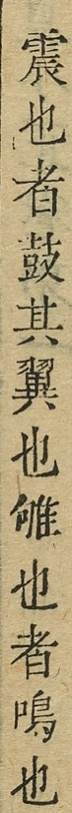震也者鼓其翼也雊也者鳴也
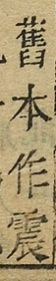舊本作震
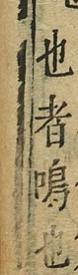也皆鳴七
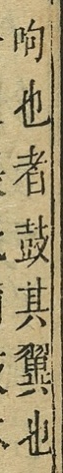呴也者鼓其翼也
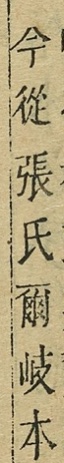今從張氏爾岐本
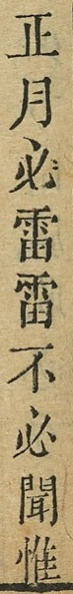正月必雷雷不必聞惟
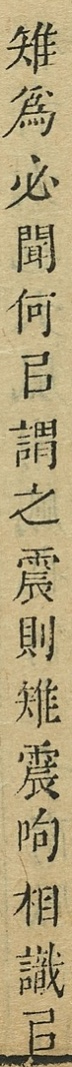雉為必聞何以謂之震則雉震䧁相識以
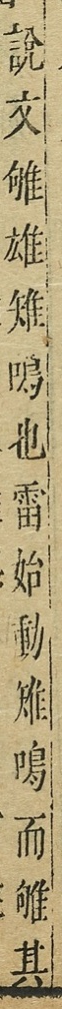說交雊雄雉鳴也雷始動雉鳴而雊其
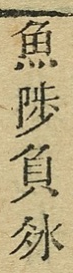魚陟負冰
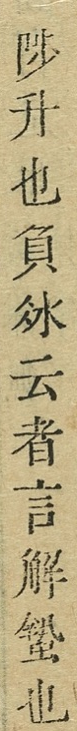陟升也負冰云者言解蟄也
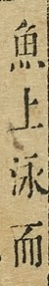魚上流而
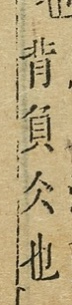背負仌也
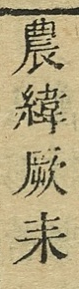農緯厥耒
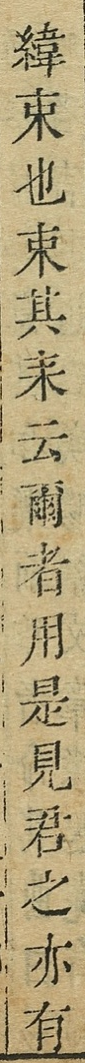緯束也束其耒云爾者用是見君之亦有
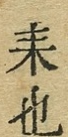耒也
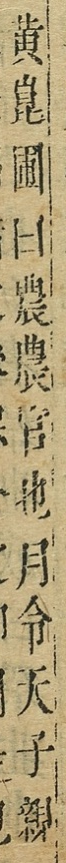黃崑圃曰農農官也月令天子親
